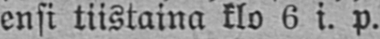ensi tiistaina klo 6 i. p.
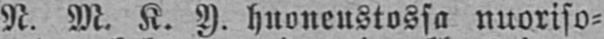N. M. K. Y. huoneustossa nuoriso-
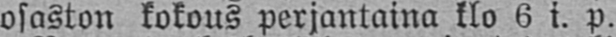osaston kokous perjantaina klo 6 i. p.
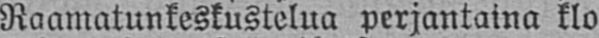Raamatunkeskustelua perjantaina klo
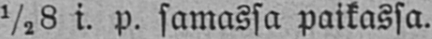½ 8 i. p. samassa paikassa.
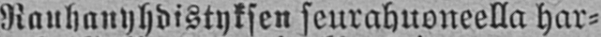Rauhanyhdistyksen seurahuoneella har-
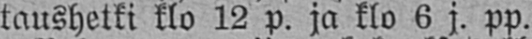taushetki klo 12 p. ja klo 6 j. pp.
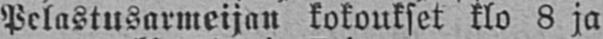Pelastusarmeijan kokoukset klo 8 ja
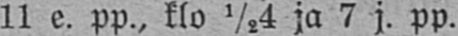11 e. pp., klo ½4 ja 7 j. pp.
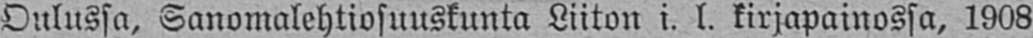Oulussa, Sanomalehtiosuuskunta Liiton i. l. kirjapainossa, 1908.
